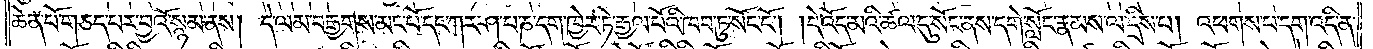ཆེན་པོ་གཅད་པར་བྱའོ་སྙམ་ནས། དེ་ལམ་བརྒྱགས་མང་པོ་དང་ཀར་ཤ་པ་ཎ་དག་ཁྱེར་ཏེ་རྒྱལ་པོའི་ཁབ་ཏུ་སོང་ངོ༌། །དེ་འོད་མའི་ཚལ་དུ་སོང་ནས་དགེ་སློང་རྣམས་ལ་དྲིས་པ། འཕགས་པ་དག་འདི་ན་
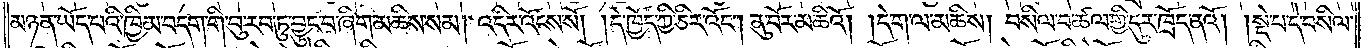མཉན་ཡོད་པའི་ཁྱིམ་བདག་གི་བུ་རབ་ཏུ་བྱུང་བ་ཞིག་མཆིས་སམ། འདིར་འོངས་སོ། །དེ་ཁྱོད་ཀྱི་ཅིར་འོང༌། ནུ་བོར་མཆིའོ། །དེ་ག་ལ་མཆིས། བསིལ་བ་ཚལ་གྱི་དུར་ཁྲོད་ནའོ། །སྡེ་པ་དེ་བསིལ་
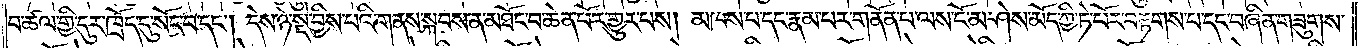བ་ཚལ་གྱི་དུར་ཁྲོད་དུ་སོང་བ་དང༌། དེས་ཉེ་སྡེ་བྱིས་པའི་གནས་སྐབས་ན་མཐོང་བ་ཆེན་པོར་གྱུར་པས། མཁས་པ་དང་རྣམ་པར་གནོན་པ་ལས་ངོ་མ་ཤེས་མོད་ཀྱི་ཏེ་པོར་བརྟགས་པ་དང་བཞིན་གཟུགས་
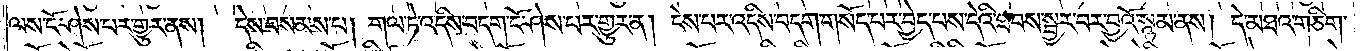ལས་ངོ་ཤེས་པར་གྱུར་ནས། དེས་བསམས་པ། གལ་ཏེ་འདིས་བདག་ངོ་ཤེས་པར་གྱུར་ན། ངེས་པར་འདིས་བདག་གསོད་པར་བྱེད་པས་དེའི་ཐབས་སྦྱར་བར་བྱའོ་སྙམ་ནས། དེ་མཐའ་གཅིག་
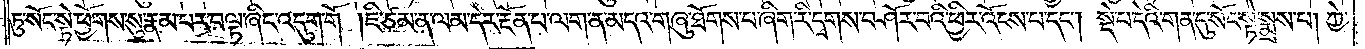ཏུ་སོང་སྟེ་ཕྱོགས་སུ་རྣམ་པར་བལྟ་ཞིང་འདུག་གོ །ཇི་ཙམ་ན་ལམ་དེར་རྔོན་པ་ལག་ན་མདའ་གཞུ་ཐོགས་པ་ཞིག་རི་དྭགས་བཤོར་བའི་ཕྱིར་འོངས་པ་དང༌། སྡེ་པ་དེའི་གན་དུ་སོང་སྟེ་སྨྲས་པ། ཀྱེ་
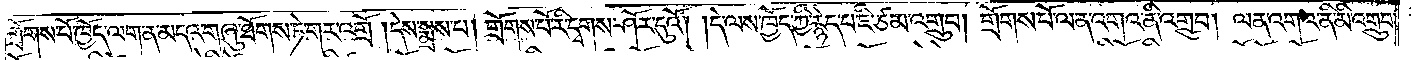གྲོགས་པོ་ཁྱོད་ལག་ན་མདའ་གཞུ་ཐོགས་ཏེ་གར་འགྲོ་།དེས་སྨྲས་པ། གྲོགས་པོ་རི་དྭགས་ཤོར་དུའོ། །དེ་ལས་ཁྱོད་ཀྱི་རྙེད་པ་ཇི་ཙམ་འགྲུབ། གྲོགས་པོ་ལན་འགའ་ནི་འགྲུབ། ལན་འགའ་ནི་མི་འགྲུབ་
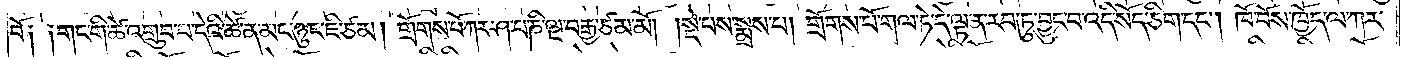བོ༑ ༑གང་གི་ཚེ་འགྲུབ་པ་དེའི་ཚེ་ན་མང་ཉུང་ཇི་ཙམ། གྲོགས་པོ་ཀར་ཤ་པ་ཎི་ལྔ་བརྒྱ་ཙམ་མོ། །སྡེ་པས་སྨྲས་པ། གྲོགས་པོ་གལ་ཏེ་དེ་ལྟ་ན་རབ་ཏུ་བྱུང་བ་འདི་སོད་ཅིག་དང༌། ཁོ་བོས་ཁྱོད་ལ་ཀར་
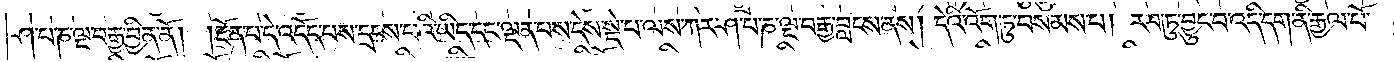ཤ་པ་ཎ་ལྔ་བརྒྱ་བྱིན་ནོ། །རྔོན་པ་དེ་འདོད་པས་དྲངས་པའི་ཡིད་དང་ལྡན་པས་དེས་སྡེ་པ་ལས་ཀར་ཤ་པ་ཎ་ལྔ་བརྒྱ་བླངས་ནས། དེའི་འོག་ཏུ་བསམས་པ། རབ་ཏུ་བྱུང་བ་འདི་དག་ནི་རྒྱལ་པོ་
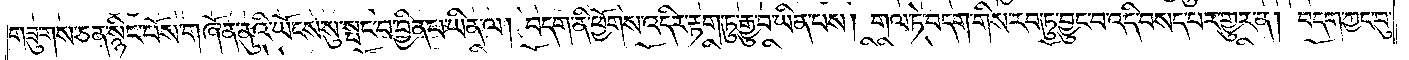གཟུགས་ཅན་སྙིང་པོས་གཞོན་ནུའི་ཡོངས་སུ་སྤང་བ་བྱིན་པ་ཡིན་ལ། བདག་ནི་ཕྱོགས་འདིར་རྟག་ཏུ་རྒྱུ་བ་ཡིན་པས། གལ་ཏེ་བདག་གིས་རབ་ཏུ་བྱུང་བ་འདི་བསད་པར་གྱུར་ན། བདག་ཀྱང་བུ་
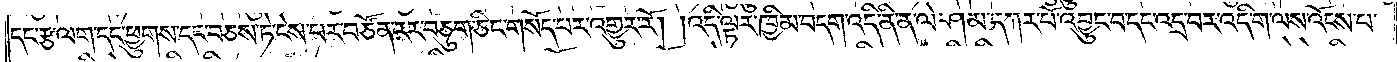དང་རྩ་ལག་དང་ཕྱུགས་དང་བཅས་ཏེ་ངེས་པར་བཙོན་རར་བཅུག་ཅིང་གསོད་པར་འགྱུར་རོ། །འདི་ལྟར་ཁྱིམ་བདག་འདི་ནི་ན་ལེ་ཤམ་དཀར་པོ་འབྱུང་བ་དང་འདྲ་བར་འདི་ག་ལས་འོངས་པ་
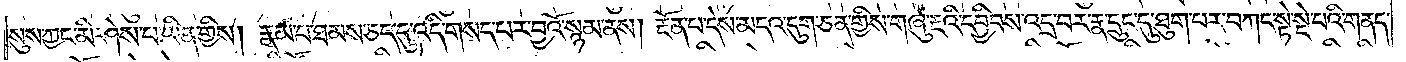སུས་ཀྱང་མི་ཤེས་པ་ཡིན་གྱིས། རྣམ་པ་ཐམས་ཅད་དུ་འདི་གསད་པར་བྱའོ་སྙམ་ནས། རྔོན་པ་དེས་མདའ་དུག་ཅན་གྱིས་གཞུ་རྔའི་དབྱིབས་འདྲ་བར་རྣ་དྲུང་དུ་ཐུག་པར་བཀང་སྟེ་སྡེ་པའི་གནད་
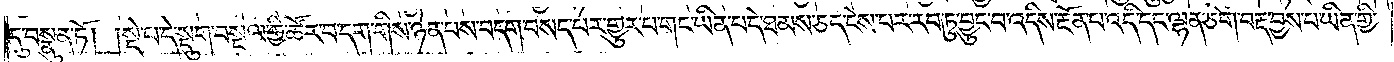དུ་བསྣུན་ཏོ། །སྡེ་པ་དེ་སྡུག་བསྔལ་གྱི་ཚོར་བ་དག་གིས་ཉེན་པས་བདག་བསད་པར་གྱུར་པ་གང་ཡིན་པ་དེ་ཐམས་ཅད་ངེས་པར་རབ་ཏུ་བྱུང་བ་འདིས་རྔོན་པ་འདི་དང་ལྷན་ཅིག་བརྡ་བྱས་པ་ཡིན་གྱི་
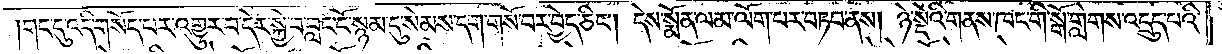གང་དུ་འདི་གསོད་པར་འགྱུར་བ་དེར་སྐྱེ་བ་བླང་ངོ་སྙམ་དུ་སེམས་དག་གསོ་བར་བྱེད་ཅིང༌། དེས་སྨོན་ལམ་ལོག་པར་བཏབ་ནས། ཉེ་སྡེའི་གནས་ཁང་གི་སྒོ་གླེགས་འདྲུད་པའི་
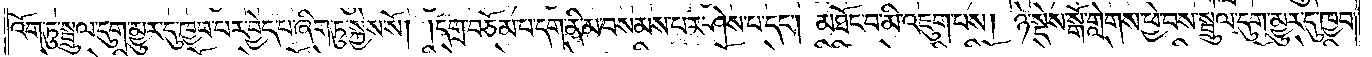འོག་ཏུ་སྦྲུལ་དུག་མྱུར་དུ་ཁྱབ་པར་བྱེད་པ་ཞིག་ཏུ་སྐྱེས་སོ། །དགྲ་བཅོམ་པ་དག་ནི་མ་བསམས་པར་ཤེས་པ་དང༌། མཐོང་བ་མི་འཇུག་པས། ཉེ་སྡེས་སྒོ་གླེགས་ཕྱེ་བས་སྦྲུལ་དུག་མྱུར་དུ་ཁྱབ་
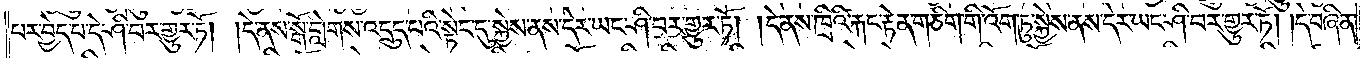པར་བྱེད་པ་དེ་ཤི་བར་གྱུར་ཏོ། །དེ་ནས་སྒོ་གླེགས་འདྲུད་པའི་སྟེང་དུ་སྐྱེས་ནས་དེར་ཡང་ཤི་བར་གྱུར་ཏོ། །དེ་ནས་ཁྲིའི་རྐང་རྟེན་གཅིག་གི་འོག་ཏུ་སྐྱེས་ནས་དེར་ཡང་ཤི་བར་གྱུར་ཏོ། །དེ་བཞིན་
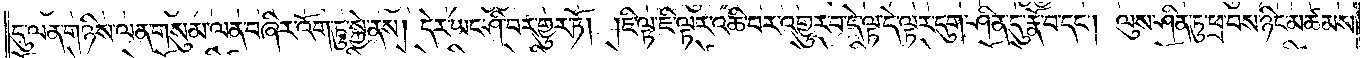དུ་ལན་གཉིས་ལན་གསུམ་ལན་བཞིར་འོག་ཏུ་སྐྱེ་ནས། དེར་ཡང་ཤི་བར་གྱུར་ཏོ། །ཇི་ལྟ་ཇི་ལྟར་འཆི་བར་འགྱུར་བ་དེ་ལྟ་དེ་ལྟར་དུག་ཤིན་དུ་རྣོ་བ་དང༌། ལུས་ཤིན་ཏུ་ཕྲ་བས་ཉིང་མཚམས་
